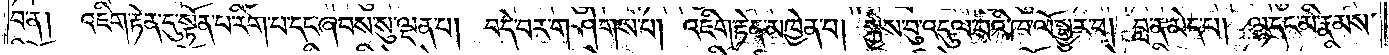བ་ན། འཇིག་རྟེན་དུ་སྟོན་པ་རིག་པ་དང་ཞབས་སུ་ལྡན་པ། བདེ་བར་གཤེགས་པ། འཇིག་རྟེན་མཁྱེན་པ། སྐྱེས་བུ་འདུལ་བའི་ཁ་ལོ་སྒྱུར་བ། བླ་ན་མེད་པ། ལྷ་དང་མི་རྣམས་
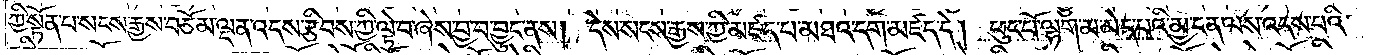ཀྱི་སྟོན་པ་སངས་རྒྱས་བཅོམ་ལྡན་འདས་རྩིབས་ཀྱི་ལྟེ་བ་ཞེས་བྱ་བ་བྱུང་ནས། དེས་སངས་རྒྱས་ཀྱི་མཛད་པ་མཐའ་དག་མཛད་དེ། ཕུང་པོ་ལྷག་མ་མེད་པའི་མྱ་ངན་ལས་འདས་པའི་
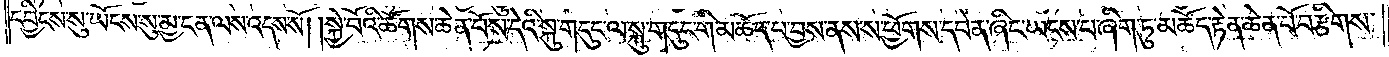དབྱིངས་སུ་ཡོངས་སུ་མྱ་ངན་ལས་འདས་སོ། །སྐྱེ་བོའི་ཚོགས་ཆེན་པོས་དེའི་སྐུ་གདུང་ལ་སྐུ་གདུང་གི་མཆོད་པ་བྱས་ནས་ས་ཕྱོགས་དབེན་ཞིང་ཡངས་བ་ཞིག་ཏུ་མཆོད་རྟེན་ཆེན་པོ་བརྩིགས་
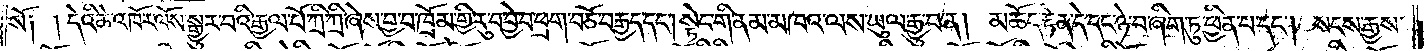སོ༑ ༑དེའི་ཚེ་འཁོར་ལོས་སྒྱུར་བའི་རྒྱལ་པོ་ཀྲི་ཀྲི་ཞེས་བྱ་བ་ཁྲོམ་གྱི་རུ་བ་བྱེ་བ་ཕྲག་བཅོ་བརྒྱད་དང༌། སྟེང་གི་ནམ་མཁའ་ལས་ཡུལ་རྒྱུ་བ་ན། མཆོད་རྟེན་དེ་དང་ཉེ་བ་ཞིག་ཏུ་ཕྱིན་པ་དང༌། སངས་རྒྱས་
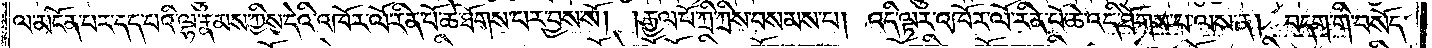ལ་མངོན་པར་དད་པའི་ལྷ་རྣམས་ཀྱིས་དེའི་འཁོར་ལོ་རིན་པོ་ཆེ་ཐོགས་པར་བྱས་སོ། །རྒྱལ་པོ་ཀྲི་ཀྲིས་བསམས་པ། འདི་ལྟར་འཁོར་ལོ་རིན་པོ་ཆེ་འདི་ཐོགས་པ་ལས་ན། བདག་གི་བསོད་
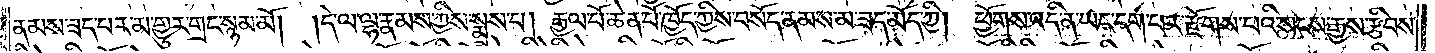ནམས་ཟད་པར་མ་གྱུར་གྲང་སྙམ་མོ། །དེ་ལ་ལྷ་རྣམས་ཀྱིས་སྨྲས་པ། རྒྱལ་པོ་ཆེན་པོ་ཁྱོད་ཀྱིས་བསོད་ནམས་མ་ཟད་མོད་ཀྱི། ཕྱོགས་འདི་ན་ཡང་དག་པར་རྫོགས་པའི་སངས་རྒྱས་རྩིབས་
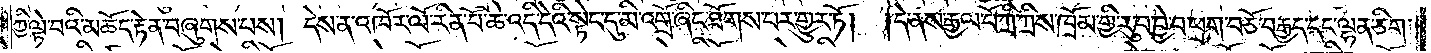ཀྱི་ལྟེ་བའི་མཆོད་རྟེན་བཞུགས་པས། དེས་ན་འཁོར་ལོ་རིན་པོ་ཆེ་འདི་དེའི་སྟེང་དུ་མི་འགྲོ་ཞིང་ཐོགས་པར་གྱུར་ཏོ།<gap>།དེ་ནས་རྒྱལ་པོ་ཀྲི་ཀྲིས་ཁྲོམ་གྱི་རུ་བ་བྱེ་བ་ཕྲག་བཅོ་བརྒྱད་དང་ལྷན་ཅིག་
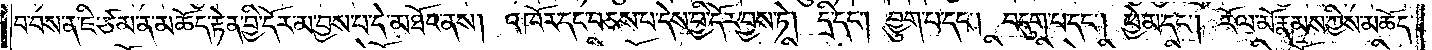བ་བས་ན་ཇི་ཙམ་ན་མཆོད་རྟེན་བྱི་དོར་མ་བྱས་པ་དེ་མཐོང་ནས། འཁོར་དང་བཅས་པ་དེས་བྱི་དོར་བྱས་ཏེ། དྲི་དང༌། བྱུག་པ་དང༌། བདུག་པ་དང༌། ཕྱེ་མ་དང༌། རོལ་མོ་རྣམས་ཀྱིས་མཆོད་
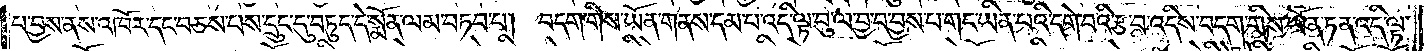པ་བྱས་ནས་འཁོར་དང་བཅས་པས་དྲུང་དུ་བཏུད་དེ་སྨོན་ལམ་བཏབ་པ། བདག་གིས་ཡོན་གནས་དམ་པ་འདི་ལྟ་བུ་ལ་བྱ་བ་བྱས་པ་གང་ཡིན་པའི་དགེ་བའི་རྩ་བ་འདིས་བདག་གིས་ཡོན་ཏན་འདི་ལྟ་
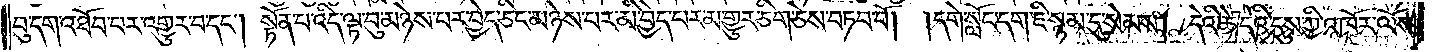བུ་དག་འཐོབ་པར་འགྱུར་བ་དང༌། སྟོན་པ་འདི་ལྟ་བུ་མཉེས་པར་བྱེད་ཅིང་མཉེས་པར་མི་བྱེད་པར་མ་གྱུར་ཅིག་ཅེས་བཏབ་བོ། །དགེ་སློང་དག་ཇི་སྙམ་དུ་སེམས། དེའི་ཚེ་དེའི་དུས་ཀྱི་འཁོར་ལོས་
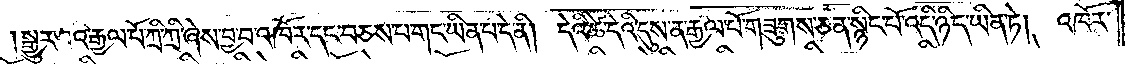སྒྱུར་བའི་རྒྱལ་པོ་ཀྲི་ཀྲི་ཞེས་བྱ་བ་འཁོར་དང་བཅས་པ་གང་ཡིན་པ་དེ་ནི། དེའི་ཚེ་དེའི་དུས་ན་རྒྱལ་པོ་གཟུགས་ཅན་སྙིང་པོ་འདི་ཉིད་ཡིན་ཏེ། འཁོར་
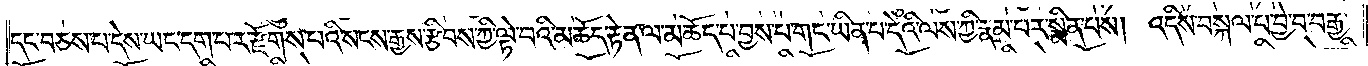དང་བཅས་པ་དེས་ཡང་དག་པར་རྫོགས་པའི་སངས་རྒྱས་རྩིབས་ཀྱི་ལྟེ་བའི་མཆོད་རྟེན་ལ་མཆོད་པ་བྱས་པ་གང་ཡིན་པ་དེའི་ལས་ཀྱི་རྣམ་པར་སྨིན་པས། འདིས་བསྐལ་པ་བྱེ་བ་བརྒྱ་
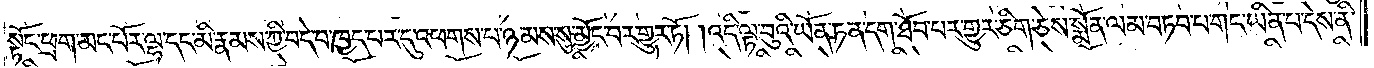སྟོང་ཕྲག་མང་པོར་ལྷ་དང་མི་རྣམས་ཀྱི་བདེ་བ་ཁྱད་པར་དུ་འཕགས་པ་ཉམས་སུ་མྱོང་བར་གྱུར་ཏོ། །འདི་ལྟ་བུའི་ཡོན་ཏན་དག་ཐོབ་པར་གྱུར་ཅིག་ཅེས་སྨོན་ལམ་བཏབ་པ་གང་ཡིན་པ་དེས་ནི་
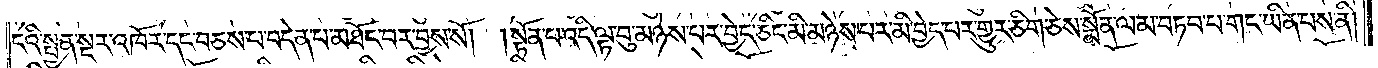ངའི་སྤྱན་སྔར་འཁོར་དང་བཅས་པ་བདེན་པ་མཐོང་བར་བྱས་སོ། །སྟོན་པ་འདི་ལྟ་བུ་མཉེས་པར་བྱེད་ཅིང་མི་མཉེས་པར་མི་བྱེད་པར་གྱུར་ཅིག་ཅེས་སྨོན་ལམ་བཏབ་པ་གང་ཡིན་པས་ནི།
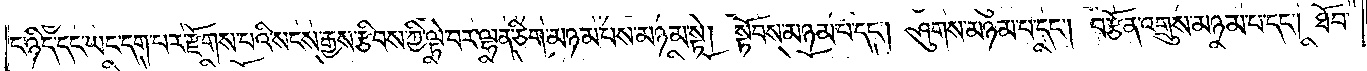ང་ཉིད་དང་ཡང་དག་པར་རྫོགས་པའི་སངས་རྒྱས་རྩིབས་ཀྱི་ལྟེ་བར་ལྷན་ཅིག་མཉམ་པས་མཉམ་སྟེ། སྟོབས་མཉམ་པ་དང༌། ཤུགས་མཉམ་པ་དང༌། བརྩོན་འགྲུས་མཉམ་པ་དང༌། ཐོབ་
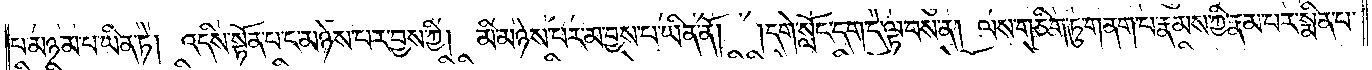པ་མཉམ་པ་ཡིན་ཏེ། འདིས་སྟོན་པ་ང་མཉེས་པར་བྱས་ཀྱི། མི་མཉེས་པར་མ་བྱས་པ་ཡིན་ནོ། །དགེ་སློང་དག་དེ་ལྟ་བས་ན། ལས་གཅིག་ཏུ་གནག་པ་རྣམས་ཀྱི་རྣམ་པར་སྨིན་པ་
